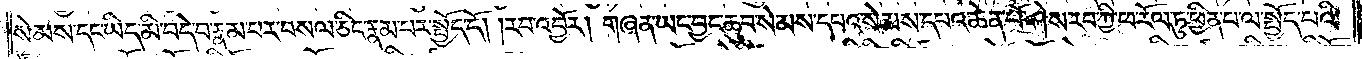སེམས་དང་ཡིད་མི་བདེ་བ་རྣམ་པར་བསལ་ཅིང་རྣམ་པར་སྤྱོད་དོ། །རབ་འབྱོར། གཞན་ཡང་བྱང་ཆུབ་སེམས་དཔའ་སེམས་དཔའ་ཆེན་པོ་ཤེས་རབ་ཀྱི་ཕ་རོལ་ཏུ་ཕྱིན་པ་ལ་སྤྱོད་པའི་
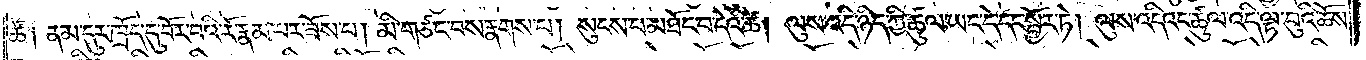ཚེ། ནམ་དུར་ཁྲོད་དུ་བོར་བའི་རོ་རྣམ་པར་ཟོས་པ། མི་གཙང་བས་རྣགས་པ། སུངས་པ་མཐོང་བ་དེའི་ཚེ། ལུས་འདི་ཉིད་ཀྱི་ཚུལ་ཡང་དེ་དང་སྦྱོར་ཏེ། ལུས་འདིའང་ཚུལ་འདི་ལྟ་བུའི་ཆོས་
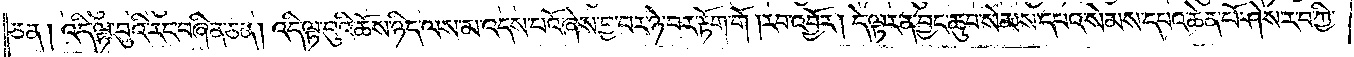ཅན། འདི་ལྟ་བུའི་རང་བཞིན་ཅན། འདི་ལྟ་བུའི་ཆོས་ཉིད་ལས་མ་འདས་པའོ་ཞེས་བྱ་བར་ཉེ་བར་རྟོག་གོ །རབ་འབྱོར། དེ་ལྟར་ན་བྱང་ཆུབ་སེམས་དཔའ་སེམས་དཔའ་ཆེན་པོ་ཤེས་རབ་ཀྱི་
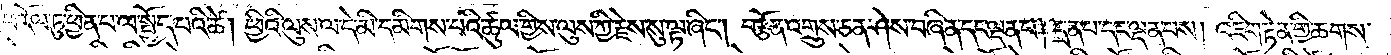ཕ་རོལ་ཏུ་ཕྱིན་པ་ལ་སྤྱོད་པའི་ཚེ། ཕྱིའི་ལུས་ལ་དེ་མི་དམིགས་པའི་ཚུལ་གྱིས་ལུས་ཀྱི་རྗེས་སུ་ལྟ་ཞིང༌། བརྩོན་འགྲུས་ཅན་ཤེས་བཞིན་དང་ལྡན་པ། དྲན་པ་དང་ལྡན་པས། འཇིག་རྟེན་གྱི་ཆགས་
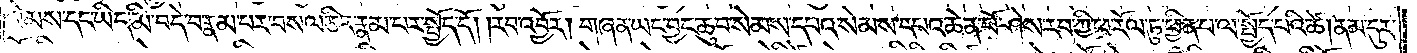སེམས་དང་ཡིད་མི་བདེ་བ་རྣམ་པར་བསལ་ཅིང་རྣམ་པར་སྤྱོད་དོ། །རབ་འབྱོར། གཞན་ཡང་བྱང་ཆུབ་སེམས་དཔའ་སེམས་དཔའ་ཆེན་པོ་ཤེས་རབ་ཀྱི་ཕ་རོལ་ཏུ་ཕྱིན་པ་ལ་སྤྱོད་པའི་ཚེ། ནམ་དུར་
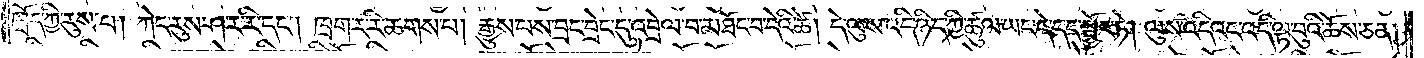ཁྲོད་ཀྱི་རུས་པ། ཀེང་རུས་ཤ་ར་རི་དང༌། ཁྲག་ར་རི་ཆགས་པ། རྒྱུས་པས་བྲང་བྲེང་དུ་འབྲེལ་བ་མཐོང་བ་དེའི་ཚེ། དེ་ལུས་འདི་ཉིད་ཀྱི་ཚུལ་ཡང་དེ་དང་སྦྱོར་ཏེ། ལུས་འདིའང་འདི་ལྟ་བུའི་ཆོས་ཅན།
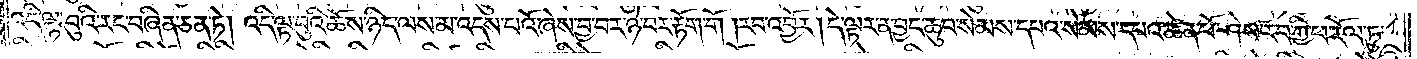འདི་ལྟ་བུའི་རང་བཞིན་ཅན་ཏེ། འདི་ལྟ་བུའི་ཆོས་ཉིད་ལས་མ་འདས་པའོ་ཞེས་བྱ་བར་ཉེ་བར་རྟོག་གོ །རབ་འབྱོར། དེ་ལྟར་ན་བྱང་ཆུབ་སེམས་དཔའ་སེམས་དཔའ་ཆེན་པོ་ཤེས་རབ་ཀྱི་ཕ་རོལ་ཏུ་
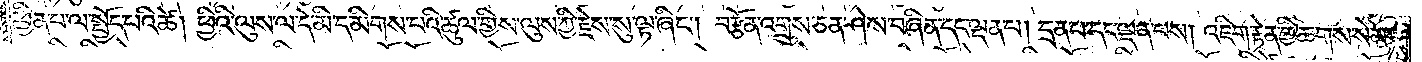ཕྱིན་པ་ལ་སྤྱོད་པའི་ཚེ། ཕྱིའི་ལུས་ལ་དེ་མི་དམིགས་པའི་ཚུལ་གྱིས་ལུས་ཀྱི་རྗེས་སུ་ལྟ་ཞིང༌། བརྩོན་འགྲུས་ཅན་ཤེས་བཞིན་དང་ལྡན་པ། དྲན་པ་དང་ལྡན་པས། འཇིག་རྟེན་གྱི་ཆགས་སེམས་
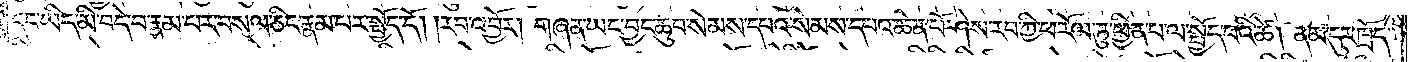དང་ཡིད་མི་བདེ་བ་རྣམ་པར་བསལ་ཅིང་རྣམ་པར་སྤྱོད་དོ། །རབ་འབྱོར། གཞན་ཡང་བྱང་ཆུབ་སེམས་དཔའ་སེམས་དཔའ་ཆེན་པོ་ཤེས་རབ་ཀྱི་ཕ་རོལ་ཏུ་ཕྱིན་པ་ལ་སྤྱོད་པའི་ཚེ། ནམ་དུར་ཁྲོད་
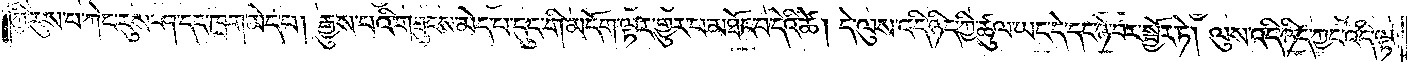ཀྱི་རུས་པ་ཀེང་རུས་ཤ་དང་ཁྲག་མེད་པ། རྒྱུས་པའི་གཟུངས་མེད་པ་དུང་གི་མདོག་ལྟར་གྱུར་པ་མཐོང་བ་དེའི་ཚེ། དེ་ལུས་འདི་ཉིད་ཀྱི་ཚུལ་ཡང་དེ་དང་ཉེ་བར་སྦྱོར་ཏེ། ལུས་འདི་ཉིད་ཀྱང་འདི་ལྟ་
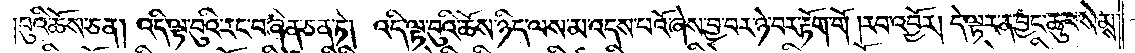བུའི་ཆོས་ཅན། འདི་ལྟ་བུའི་རང་བཞིན་ཅན་ཏེ། འདི་ལྟ་བུའི་ཆོས་ཉིད་ལས་མ་འདས་པའོ་ཞེས་བྱ་བར་ཉེ་བར་རྟོག་གོ །རབ་འབྱོར། དེ་ལྟར་ན་བྱང་ཆུབ་སེམས་
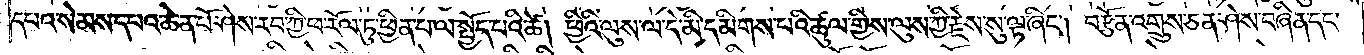དཔའ་སེམས་དཔའ་ཆེན་པོ་ཤེས་རབ་ཀྱི་ཕ་རོལ་ཏུ་ཕྱིན་པ་ལ་སྤྱོད་པའི་ཚེ། ཕྱིའི་ལུས་ལ་དེ་མི་དམིགས་པའི་ཚུལ་གྱིས་ལུས་ཀྱི་རྗེས་སུ་ལྟ་ཞིང༌། བརྩོན་འགྲུས་ཅན་ཤེས་བཞིན་དང་
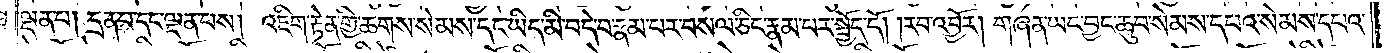ལྡན་པ། དྲན་པ་དང་ལྡན་པས། འཇིག་རྟེན་གྱི་ཆགས་སེམས་དང་ཡིད་མི་བདེ་བ་རྣམ་པར་བསལ་ཅིང་རྣམ་པར་སྤྱོད་དོ། །རབ་འབྱོར། གཞན་ཡང་བྱང་ཆུབ་སེམས་དཔའ་སེམས་དཔའ་
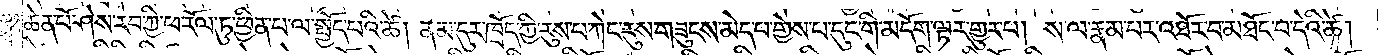ཆེན་པོ་ཤེས་རབ་ཀྱི་ཕ་རོལ་ཏུ་ཕྱིན་པ་ལ་སྤྱོད་པའི་ཚེ། ནམ་དུར་ཁྲོད་ཀྱི་རུས་པ་ཀེང་རུས་གཟུངས་མེད་པ་གྱེས་པ་དུང་གི་མདོག་ལྟར་གྱུར་པ། ས་ལ་རྣམ་པར་འཐོར་བ་མཐོང་བ་དེའི་ཚེ།
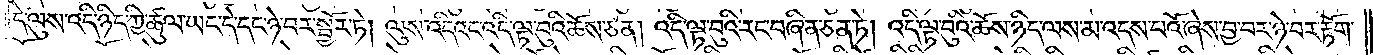དེ་ལུས་འདི་ཉིད་ཀྱི་ཚུལ་ཡང་དེ་དང་ཉེ་བར་སྦྱོར་ཏེ། ལུས་འདིའང་འདི་ལྟ་བུའི་ཆོས་ཅན། འདི་ལྟ་བུའི་རང་བཞིན་ཅན་ཏེ། འདི་ལྟ་བུའི་ཆོས་ཉིད་ལས་མ་འདས་པའོ་ཞེས་བྱ་བར་ཉེ་བར་རྟོག་
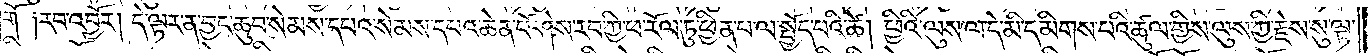གོ ༑རབ་འབྱོར། དེ་ལྟར་ན་བྱང་ཆུབ་སེམས་དཔའ་སེམས་དཔའ་ཆེན་པོ་ཤེས་རབ་ཀྱི་ཕ་རོལ་ཏུ་ཕྱིན་པ་ལ་སྤྱོད་པའི་ཚེ། ཕྱིའི་ལུས་ལ་དེ་མི་དམིགས་པའི་ཚུལ་གྱིས་ལུས་ཀྱི་རྗེས་སུ་ལྟ་
